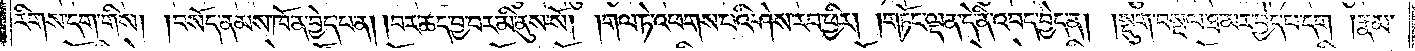རིགས་དག་གིས། །བསོད་ནམས་ཁོ་ན་བྱེད་པ་ན། །བར་ཆད་བྱ་བར་མི་ནུས་སོ། །གལ་ཏེ་འཕགས་པའི་ཤེས་རབ་ཕྱིར། །གཏོང་ལྡན་དེ་ནི་འབད་བྱེད་ན། །སྡུག་བསྔལ་ཐ་མར་བྱེད་པ་དག །རྣམ་
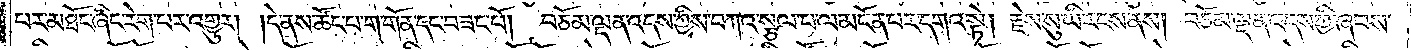པར་མཐོང་ཞིང་རེག་པར་འགྱུར། །དེ་ནས་ཚོང་པ་ག་གོན་དང་བཟང་པོ། བཅོམ་ལྡན་འདས་ཀྱིས་བཀའ་སྩལ་པ་ལ་མངོན་པར་དགའ་སྟེ། རྗེས་སུ་ཡི་རངས་ནས། བཅོམ་ལྡན་འདས་ཀྱི་ཞབས་
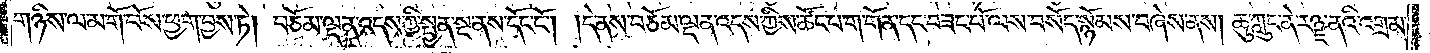གཉིས་ལ་མ་གོ་བོས་ཕྱག་བྱས་ཏེ། བཅོམ་ལྡན་འདས་ཀྱི་སྤྱན་སྔ་ནས་དོང་ངོ༌། །དེ་ནས་བཅོམ་ལྡན་འདས་ཀྱིས་ཚོང་པ་ག་གོན་དང་བཟང་པོ་ལས་བསོད་སྙོམས་བཞེས་ནས། ཆུ་ཀླུང་ནེ་རཉྫ་ནའི་འགྲམ་
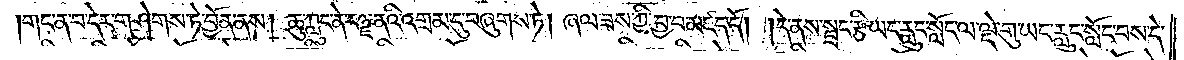།གང་ན་བ་དེར་གཤེགས་ཏེ་བྱོན་ནས། ཆུ་ཀླུང་ནེ་རཉྫ་ནའི་འགྲམ་དུ་བཞུགས་ཏེ། ཞལ་ཟས་ཀྱི་བྱ་བ་མཛད་དོ། །དེ་ནས་སྦྲང་རྩི་ཡང་རླུང་སློང་ལ་ལྡེ་གུ་ཡང་རླུང་སློང་བས་དེ་
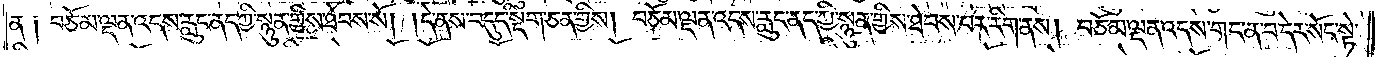ན༑ བཅོམ་ལྡན་འདས་རླུང་ནད་ཀྱི་སྙུན་གྱིས་ཐེབས་སོ། །དེ་ནས་བདུད་སྡིག་ཅན་གྱིས། བཅོམ་ལྡན་འདས་རླུང་ནད་ཀྱི་སྙུན་གྱིས་ཐེབས་པར་རིག་ནས། བཅོམ་ལྡན་འདས་གང་ན་བ་དེར་སོང་སྟེ་
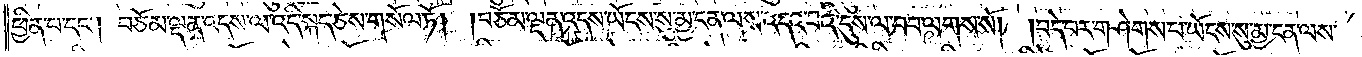ཕྱིན་པ་དང༌། བཅོམ་ལྡན་འདས་ལ་འདི་སྐད་ཅེས་གསོལ་ཏོ། །བཅོམ་ལྡན་འདས་ཡོངས་སུ་མྱ་ངན་ལས་འདའ་བའི་དུས་ལ་བབ་ལགས་སོ། །བདེ་བར་གཤེགས་པ་ཡོངས་སུ་མྱ་ངན་ལས་
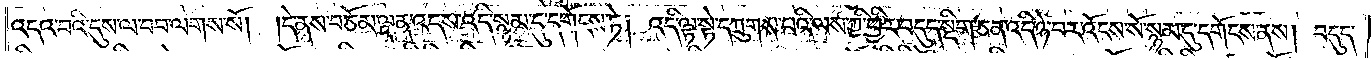འདའ་བའི་དུས་ལ་བབ་ལགས་སོ། །དེ་ནས་བཅོམ་ལྡན་འདས་འདི་སྙམ་དུ་དགོངས་ཏེ། འདི་ལྟ་སྟེ་དཀྲུགས་པའི་ལས་ཀྱི་ཕྱིར་བདུད་སྡིག་ཅན་འདི་ཉེ་བར་འོངས་སོ་སྙམ་དུ་དགོངས་ནས། བདུད་
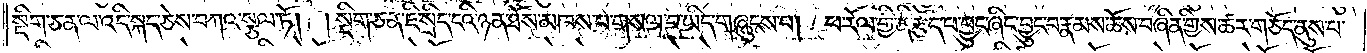སྡིག་ཅན་ལ་འདི་སྐད་ཅེས་བཀའ་སྩལ་ཏོ། །སྡིག་ཅན་ཇི་སྲིད་ངའི་ཉན་ཐོས་མཁས་པ་གསལ་བ་ཡིད་གཞུངས་པ། ཕ་རོལ་གྱི་ནི་རྩོད་པ་བྱུང་ཞིང་བྱུང་བ་རྣམས་ཆོས་བཞིན་གྱིས་ཚར་གཅོད་ནུས་པ་
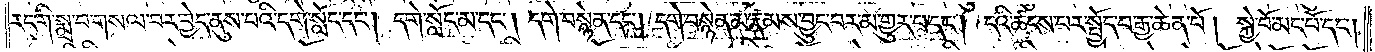རང་གི་སྨྲ་བ་གསལ་བར་བྱེད་ནུས་པའི་དགེ་སློང་དང༌། དགེ་སློང་མ་དང༌། དགེ་བསྙེན་དང༌། དགེ་བསྙེན་མ་རྣམས་བྱུང་བར་མ་གྱུར་པ་དང༌། ངའི་ཚངས་པར་སྤྱོད་པ་རྒྱ་ཆེན་པོ། སྐྱེ་བོ་མང་པོ་དང༌།
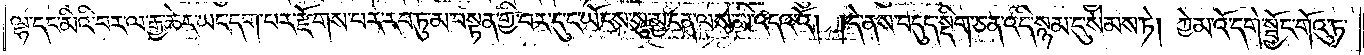ལྷ་དང་མིའི་བར་ལ་རྒྱ་ཆེར་ཡང་དག་པར་རྫོགས་པར་རབ་ཏུ་མ་བསྟན་གྱི་བར་དུ་ང་ཡོངས་སུ་མྱ་ངན་ལས་མི་འདའ་འོ། །དེ་ནས་བདུད་སྡིག་ཅན་འདི་སྙམ་དུ་སེམས་ཏེ། ཀྱེ་མའོ་དགེ་སྦྱོང་གོའུ་ཏ་
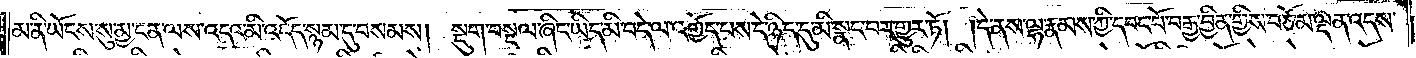མ་ནི་ཡོངས་སུ་མྱ་ངན་ལས་འདའ་མི་འདོད་སྙམ་དུ་བསམས། སྡུག་བསྔལ་ཞིང་ཡིད་མི་བདེ་ལ་འགྱོད་པས་དེ་ཉིད་དུ་མི་སྣང་བར་གྱུར་ཏོ། །དེ་ནས་ལྷ་རྣམས་ཀྱི་དབང་པོ་བརྒྱ་བྱིན་གྱིས་བཅོམ་ལྡན་འདས་
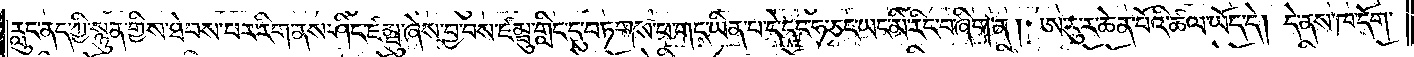རླུང་ནད་ཀྱི་སྙུན་གྱིས་ཐེབས་པར་རིག་ནས་ཤིང་ཛམྦུ་ཞེས་བྱ་བས་ཛམྦུ་གླིང་དུ་བཏགས་པ་གང་ཡིན་པ་དེ་དང་ཧ་ཅང་ཡང་མི་རིང་བ་ཞིག་ན། ཨ་རུ་ར་ཆེན་པོའི་ཚལ་ཡོད་དེ། དེ་ནས་ཁ་དོག་
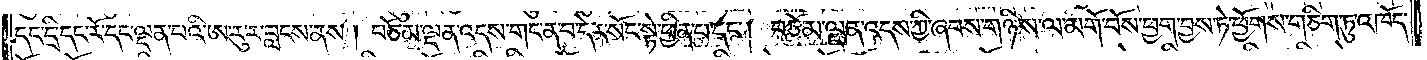དང་དྲི་དང་རོ་དང་ལྡན་པའི་ཨ་རུ་ར་བླངས་ནས། བཅོམ་ལྡན་འདས་གང་ན་བ་དེར་སོང་སྟེ་ཕྱིན་པ་དང༌། བཅོམ་ལྡན་འདས་ཀྱི་ཞབས་གཉིས་ལ་མགོ་བོས་ཕྱག་བྱས་ཏེ་ཕྱོགས་གཅིག་ཏུ་འཁོད་
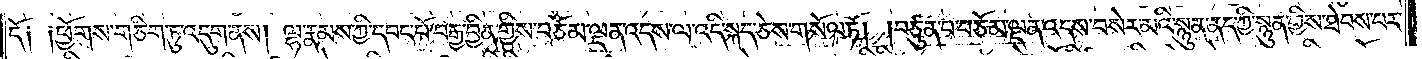དོ༑ ༑ཕྱོགས་གཅིག་ཏུ་འདུག་ནས། ལྷ་རྣམས་ཀྱི་དབང་པོ་བརྒྱ་བྱིན་གྱིས་བཅོམ་ལྡན་འདས་ལ་འདི་སྐད་ཅེས་གསོལ་ཏོ། །བཙུན་པ་བཅོམ་ལྡན་འདས་བསེར་མའི་སྙུན་ནད་ཀྱི་སྙུན་གྱིས་ཐེབས་པར་
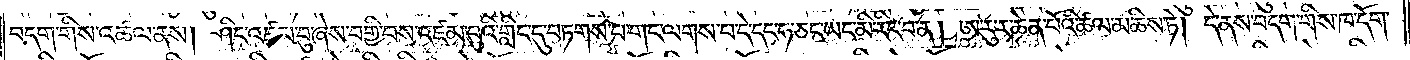བདག་གིས་འཚལ་ནས། ཤིང་འཛམ་བུ་ཞེས་བགྱི་བས་འཛམ་བུའི་གླིང་དུ་བཏགས་པ་གང་ལགས་པ་དེ་དང་ཧ་ཅང་ཡང་མི་རིང་བ་ན། ཨ་རུ་ར་ཆེན་པོའི་ཚལ་མཆིས་ཏེ། དེ་ནས་བདག་གིས་ཁ་དོག་
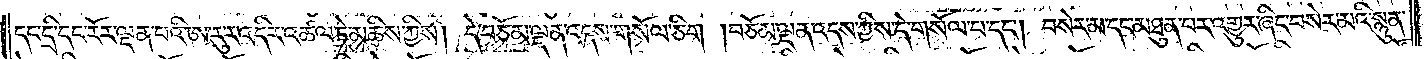དང་དྲི་དང་རོར་ལྡན་པའི་ཨ་རུ་ར་འདིར་འཚལ་ཏེ་མཆིས་ཀྱིས། དེ་བཅོམ་ལྡན་འདས་གསོལ་ཅིག །བཅོམ་ལྡན་འདས་ཀྱིས་དེ་གསོལ་པ་དང༌། བསེར་མ་དང་མཐུན་པར་འགྱུར་ཞིང་བསེར་མའི་སྙུན་
